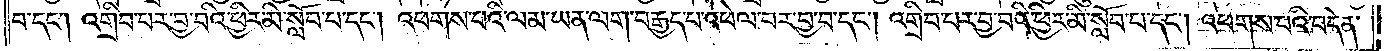བ་དང༌། འགྲིབ་པར་བྱ་བའི་ཕྱིར་མི་སློབ་པ་དང༌། འཕགས་པའི་ལམ་ཡན་ལག་བརྒྱད་པ་འཕེལ་བར་བྱ་བ་དང༌། འགྲིབ་པར་བྱ་བའི་ཕྱིར་མི་སློབ་པ་དང༌། འཕགས་པའི་བདེན་
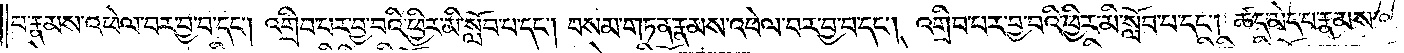པ་རྣམས་འཕེལ་བར་བྱ་བ་དང༌། འགྲིབ་བར་བྱ་བའི་ཕྱིར་མི་སློབ་པ་དང༌། བསམ་གཏན་རྣམས་འཕེལ་བར་བྱ་བ་དང༌། འགྲིབ་པར་བྱ་བའི་ཕྱིར་མི་སློབ་པ་དང༌། ཚད་མེད་པ་རྣམས་
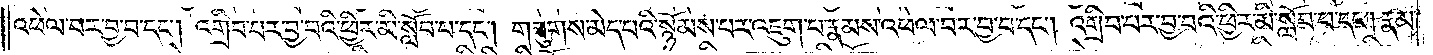འཕེལ་བར་བྱ་བ་དང༌། འགྲིབ་པར་བྱ་བའི་ཕྱིར་མི་སློབ་པ་དང༌། གཟུགས་མེད་པའི་སྙོམས་པར་འཇུག་པ་རྣམས་འཕེལ་བར་བྱ་བ་དང༌། འགྲིབ་པར་བྱ་བའི་ཕྱིར་མི་སློབ་པ་དང༌། རྣམ་
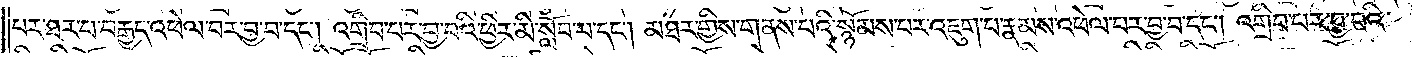པར་ཐར་པ་བརྒྱད་འཕེལ་བར་བྱ་བ་དང༌། འགྲིབ་པར་བྱ་བའི་ཕྱིར་མི་སློབ་པ་དང༌། མཐར་གྱིས་གནས་པའི་སྙོམས་པར་འཇུག་པ་རྣམས་འཕེལ་བར་བྱ་བ་དང༌། འགྲིབ་པར་བྱ་བའི་
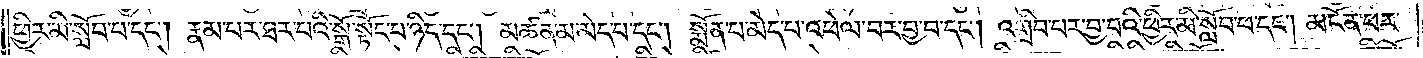ཕྱིར་མི་སློབ་པ་དང༌། རྣམ་པར་ཐར་པའི་སྒོ་སྟོང་པ་ཉིད་དང༌། མཚན་མ་མེད་པ་དང༌། སྨོན་པ་མེད་པ་འཕེལ་བར་བྱ་བ་དང༌། འགྲིབ་པར་བྱ་བའི་ཕྱིར་མི་སློབ་པ་དང༌། མངོན་པར་
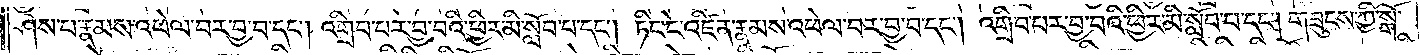ཤེས་པ་རྣམས་འཕེལ་བར་བྱ་བ་དང༌། འགྲིབ་པར་བྱ་བའི་ཕྱིར་མི་སློབ་པ་དང༌། ཏིང་ངེ་འཛིན་རྣམས་འཕེལ་བར་བྱ་བ་དང༌། འགྲིབ་པར་བྱ་བའི་ཕྱིར་མི་སློབ་པ་དང༌། གཟུངས་ཀྱི་སྒོ་
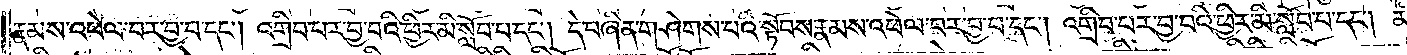རྣམས་འཕེལ་བར་བྱ་བ་དང༌། འགྲིབ་པར་བྱ་བའི་ཕྱིར་མི་སློབ་པ་དང༌། དེ་བཞིན་གཤེགས་པའི་སྟོབས་རྣམས་འཕེལ་བར་བྱ་བ་དང༌། འགྲིབ་པར་བྱ་བའི་ཕྱིར་མི་སློབ་པ་དང༌། མི་
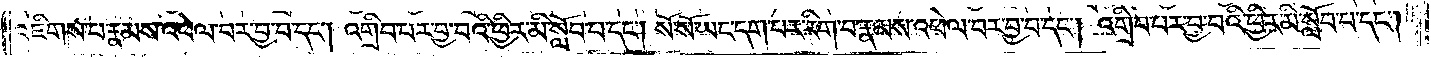འཇིགས་པ་རྣམས་འཕེལ་བར་བྱ་བ་དང༌། འགྲིབ་པར་བྱ་བའི་ཕྱིར་མི་སློབ་པ་དང༌། སོ་སོ་ཡང་དག་པར་རིག་པ་རྣམས་འཕེལ་བར་བྱ་བ་དང༌། འགྲིབ་པར་བྱ་བའི་ཕྱིར་མི་སློབ་པ་དང༌།
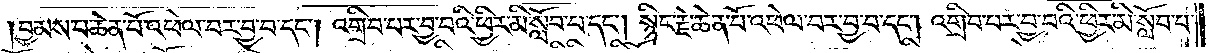བྱམས་པ་ཆེན་པོ་འཕེལ་བར་བྱ་བ་དང༌། འགྲིབ་པར་བྱ་བའི་ཕྱིར་མི་སློབ་པ་དང༌། སྙིང་རྗེ་ཆེན་པོ་འཕེལ་བར་བྱ་བ་དང༌། འགྲིབ་པར་བྱ་བའི་ཕྱིར་མི་སློབ་པ་
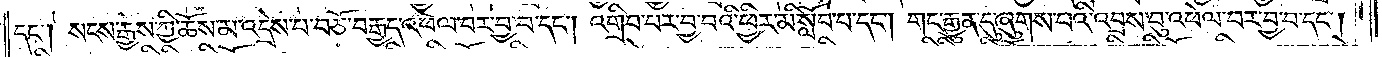དང༌། སངས་རྒྱས་ཀྱི་ཆོས་མ་འདྲེས་པ་བཅོ་བརྒྱད་འཕེལ་བར་བྱ་བ་དང༌། འགྲིབ་པར་བྱ་བའི་ཕྱིར་མི་སློབ་པ་དང༌། གང་རྒྱུན་དུ་ཞུགས་པའི་འབྲས་བུ་འཕེལ་བར་བྱ་བ་དང༌།
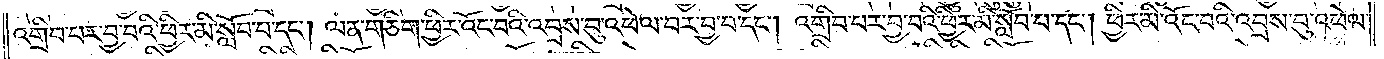འགྲིབ་པར་བྱ་བའི་ཕྱིར་མི་སློབ་པ་དང༌། ལན་ཅིག་ཕྱིར་འོང་པའི་འབྲས་བུ་འཕེལ་བར་བྱ་བ་དང༌། འགྲིབ་པར་བྱ་བའི་ཕྱིར་མི་སློབ་པ་དང༌། ཕྱིར་མི་འོང་བའི་འབྲས་བུ་འཕེལ་
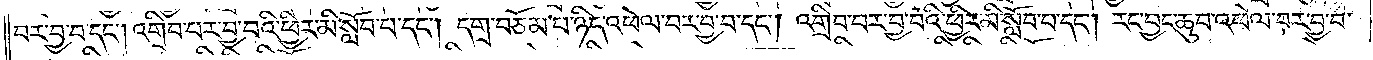བར་བྱ་བ་དང༌། འགྲིབ་པར་བྱ་བའི་ཕྱིར་མི་སློབ་པ་དང༌། དགྲ་བཅོམ་པ་ཉིད་འཕེལ་བར་བྱ་བ་དང༌། འགྲིབ་པར་བྱ་བའི་ཕྱིར་མི་སློབ་པ་དང༌། རང་བྱང་ཆུབ་འཕེལ་བར་བྱ་བ་
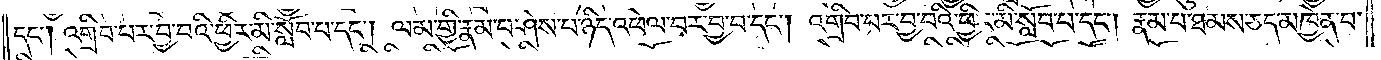དང༌། འགྲིབ་པར་བྱ་བའི་ཕྱིར་མི་སློབ་པ་དང༌། ལམ་གྱི་རྣམ་པ་ཤེས་པ་ཉིད་འཕེལ་བར་བྱ་བ་དང༌། འགྲིབ་པར་བྱ་བའི་ཕྱིར་མི་སློབ་པ་དང༌། རྣམ་པ་ཐམས་ཅད་མཁྱེན་པ་
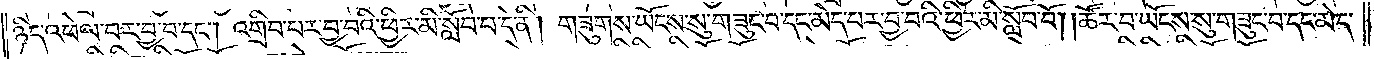ཉིད་འཕེལ་བར་བྱ་བ་དང༌། འགྲིབ་པར་བྱ་བའི་ཕྱིར་མི་སློབ་པ་དེ་ནི། གཟུགས་ཡོངས་སུ་གཟུང་བ་དང་མེད་པར་བྱ་བའི་ཕྱིར་མི་སློབ་བོ། །ཚོར་བ་ཡོངས་སུ་གཟུང་བ་དང་མེད་
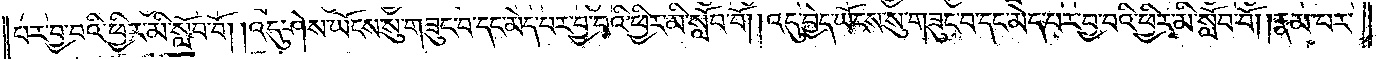པར་བྱ་བའི་ཕྱིར་མི་སློབ་བོ། །འདུ་ཤེས་ཡོངས་སུ་གཟུང་བ་དང་མེད་པར་བྱ་བའི་ཕྱིར་མི་སློབ་བོ། །འདུ་བྱེད་ཡོངས་སུ་གཟུང་བ་དང་མེད་པར་བྱ་བའི་ཕྱིར་མི་སློབ་བོ། །རྣམ་པར་
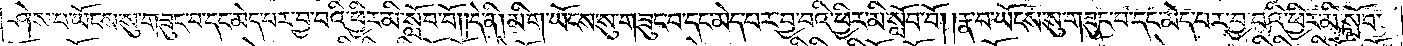ཤེས་པ་ཡོངས་སུ་གཟུང་བ་དང་མེད་པར་བྱ་བའི་ཕྱིར་མི་སློབ་བོ། །དེ་ནི་མིག་ཡོངས་སུ་གཟུང་བ་དང་མེད་པར་བྱ་བའི་ཕྱིར་མི་སློབ་པོ། །རྣ་བ་ཡོངས་སུ་གཟུང་བ་དང་མེད་པར་བྱ་བའི་ཕྱིར་མི་སློབ་
